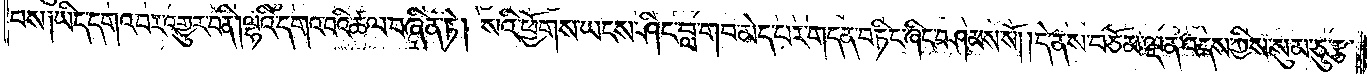བས༑ ཡིད་དགའ་བར་འགྱུར་བ་ནི། ལྷའི་དགའ་བའི་ཚལ་བཞིན་ཏེ། སའི་ཕྱོགས་ཡངས་ཤིང་བླ་གབ་མེད་པར་གདན་བཏིང་ཞིང་བཤམས་སོ། །དེ་ནས་བཅོམ་ལྡན་འདས་ཀྱིས་སུམ་ཅུ་རྩ་
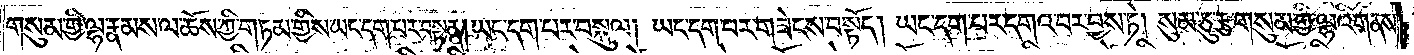གསུམ་གྱི་ལྷ་རྣམས་ལ་ཆོས་ཀྱི་གཏམ་གྱིས་ཡང་དག་པར་བསྟན། ཡང་དག་པར་བསྐུལ། ཡང་དག་པར་གཟེངས་བསྟོད། ཡང་དག་པར་དགའ་བར་བྱས་ཏེ། སུམ་ཅུ་རྩ་གསུམ་གྱི་ལྷའི་གནས་
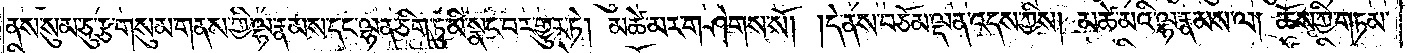ནས་སུམ་ཅུ་རྩ་གསུམ་གནས་ཀྱི་ལྷ་རྣམས་དང་ལྷན་ཅིག་ཏུ་མི་སྣང་བར་གྱུར་ཏེ། མཚེ་མར་གཤེགས་སོ། །དེ་ནས་བཅོམ་ལྡན་འདས་ཀྱིས། མཚེ་མའི་ལྷ་རྣམས་ལ། ཆོས་ཀྱི་གཏམ་
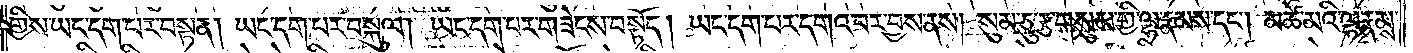གྱིས་ཡང་དག་པར་བསྟན། ཡང་དག་པར་བསྐུལ། ཡང་དག་པར་གཟེངས་བསྟོད། ཡང་དག་པར་དགའ་བར་བྱས་ནས། སུམ་ཅུ་རྩ་གསུམ་གྱི་ལྷ་རྣམས་དང༌། མཚེ་མའི་ལྷ་རྣམས་
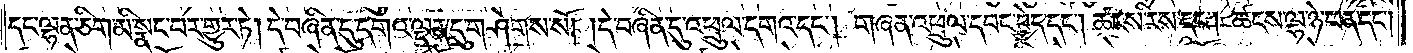དང་ལྷན་ཅིག་མི་སྣང་བར་གྱུར་ཏེ། དེ་བཞིན་དུ་དགའ་ལྡན་དུ་གཤེགས་སོ། །དེ་བཞིན་དུ་འཕྲུལ་དགའ་དང༌། གཞན་འཕྲུལ་དབང་བྱེད་དང༌། ཚངས་རིས་དང༌། ཚངས་ལྷ་ཉེ་ཕན་དང༌།
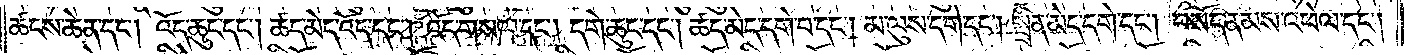ཚངས་ཆེན་དང༌། འོད་ཆུང་དང༌། ཚད་མེད་འོད་དང༌། འོད་གསལ་དང༌། དགེ་ཆུང་དང༌། ཚད་མེད་དགེ་བ་དང༌། མ་ལུས་དགེ་དང༌། སྤྲིན་མེད་དགེ་དང༌། བསོད་ནམས་འཕེལ་དང༌།
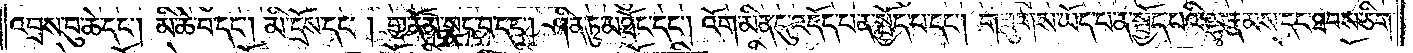འབྲས་བུ་ཆེ་དང༌། མི་ཆེ་བ་དང༌། མི་དྲོས་དང༌། གྱ་ནོམ་སྣང་བ་དང༌། ཤིན་ཏུ་མཐོང་དང༌། འོག་མིན་དུ་འདོད་པ་ན་སྤྱོད་པ་དང༌། གཟུགས་ཡོད་པ་ན་སྤྱོད་པའི་ལྷ་རྣམས་དང་ཐབས་ཅིག་
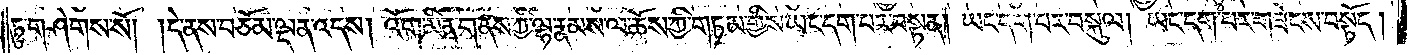ཏུ་གཤེགས་སོ། །དེ་ནས་བཅོམ་ལྡན་འདས། འོག་མིན་གནས་ཀྱི་ལྷ་རྣམས་ལ་ཆོས་ཀྱི་གཏམ་གྱིས་ཡང་དག་པར་བསྟན། ཡང་དག་པར་བསྐུལ། ཡང་དག་པར་གཟེངས་བསྟོད།
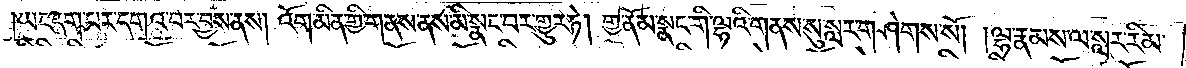ཡང་དག་པར་དགའ་བར་བྱས་ནས། འོག་མིན་གྱི་གནས་ནས་མི་སྣང་བར་གྱུར་ཏེ། གྱ་ནོམ་སྣང་གི་ལྷའི་གནས་སུ་སླར་གཤེགས་སོ། །ལྷ་རྣམས་ལ་སླར་རིམ་
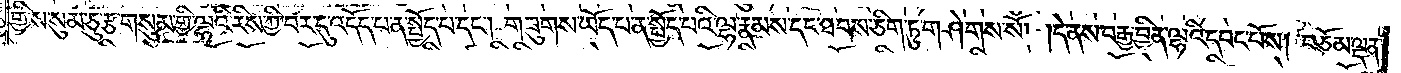གྱིས་སུམ་ཅུ་རྩ་གསུམ་གྱི་ལྷའི་རིས་ཀྱི་བར་དུ་འདོད་པ་ན་སྤྱོད་པ་དང༌། གཟུགས་ཡོད་པ་ན་སྤྱོད་པའི་ལྷ་རྣམས་དང་ཐབས་ཅིག་ཏུ་གཤེགས་སོ། །དེ་ནས་བརྒྱ་བྱིན་ལྷའི་དབང་པོས། བཅོམ་ལྡན་
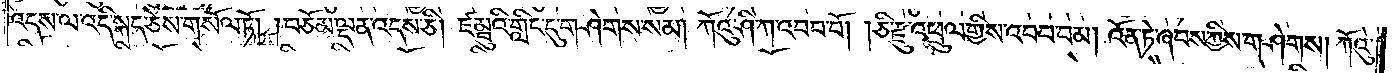འདས་ལ་འདི་སྐད་ཅེས་གསོལ་ཏོ། །བཅོམ་ལྡན་འདས་ཅི། ཛམྦུའི་གླིང་དུ་གཤེགས་སམ། ཀོའུ་ཤི་ཀ་འབབ་བོ། །ཅི་རྫུ་འཕྲུལ་གྱིས་འབབ་བམ། འོན་ཏེ་ཞབས་ཀྱིས་གཤེགས། ཀོའུ་
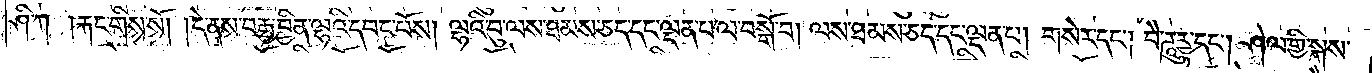ཤི་ཀ། རྐང་གིས་སོ། །དེ་ནས་བརྒྱ་བྱིན་ལྷའི་དབང་པོས། ལྷའི་བུ་ལས་ཐམས་ཅད་དང་ལྡན་པ་ལ་བསྒོ་བ། ལས་ཐམས་ཅད་དང་ལྡན་པ། གསེར་དང༌། བཻ་ཌཱུཪྻ་དང༌། ཤེལ་གྱི་སྐས་
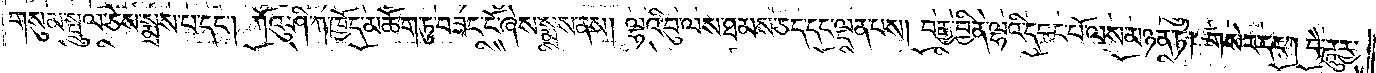གསུམ་སྤྲུལ་ཅེས་སྨྲས་པ་དང༌། ཀོའུ་ཤི་ཀ་ཁྱོད་མཆོག་ཏུ་བཟང་ངོ་ཞེས་སྨྲས་ནས། ལྷའི་བུ་ལས་ཐམས་ཅད་དང་ལྡན་པས། བརྒྱ་བྱིན་ལྷའི་དབང་པོ་ལས་མཉན་ཏེ། གསེར་དང༌། བཻ་ཌཱུཪྻ་
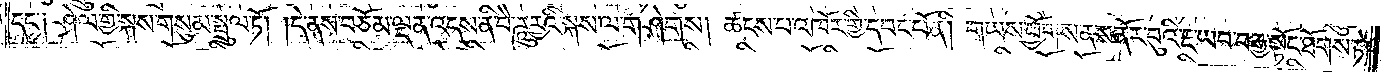དང༌། ཤེལ་གྱི་སྐས་གསུམ་སྤྲུལ་ཏོ། །དེ་ནས་བཅོམ་ལྡན་འདས་ནི་བཻ་ཌཱུཪྻའི་སྐས་ལ་གཤེགས། ཚངས་པ་འཁོར་གྱི་དབང་པོ་ནི། གཡས་ཕྱོགས་ནས་ནོར་བུའི་རྔ་ཡབ་བརྒྱ་སྟོང་ཐོགས་ཏེ།
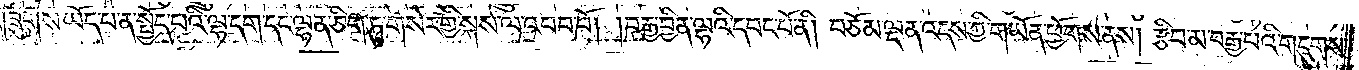གཟུགས་ཡོད་པ་ན་སྤྱོད་པའི་ལྷ་དག་དང་ལྷན་ཅིག་ཏུ་གསེར་གྱི་སྐས་ལ་འབབ་བོ། །བརྒྱ་བྱིན་ལྷའི་དབང་པོ་ནི། བཅོམ་ལྡན་འདས་ཀྱི་གཡོན་ཕྱོགས་ནས། རྩིབ་མ་བརྒྱ་པའི་གདུགས་
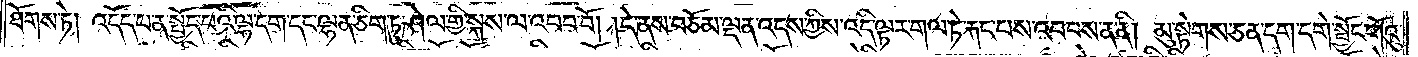ཐོགས་ཏེ། འདོད་པ་ན་སྤྱོད་པའི་ལྷ་དག་དང་ལྷན་ཅིག་ཏུ་ཤེལ་གྱི་སྐས་ལ་འབབ་བོ། །དེ་ནས་བཅོམ་ལྡན་འདས་ཀྱིས་འདི་ལྟར་གལ་ཏེ་རྐང་པས་འབབས་ན་ནི། མུ་སྟེགས་ཅན་དག་དགེ་སྦྱོང་གོའུ་
